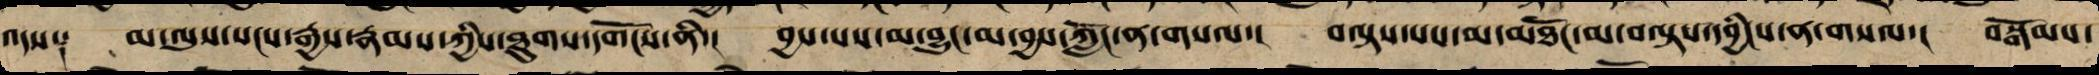འདས༑ མ་ལུས་སངས་རྒྱས་རྣམས་ཀྱི་ཐུགས་དགོངས་ནི་། བྱས་པས་མ་བྱུང་མ་བྱས་ཀློང་ན་གསལ་། བལྟས་པས་མ་མཐོང་མ་བལྟས་དབྱིངས་ན་གསལ་། བསྒོམས་
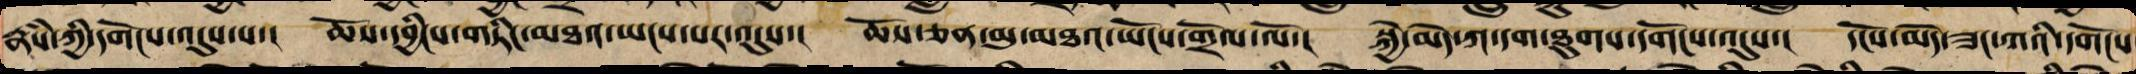རྣཾས་ཀྱི་དགོངས་འདུས་པ་། ཆོས་དབྱིངས་གཏིང་མཐའ་ཡངས་པར་འདུས་། ཆོས་ཅན་མུ་མཐའ་ཡོངས་གྲོལ་ལོ་། སྐྱེ་མེད་ཀ་དག་ཐུགས་དགོངས་འདུས་། དངོས་མེད་ཟང་ཀའི་དགོངས
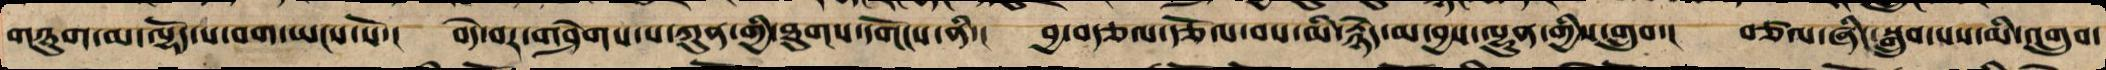གཉུག་མ་ལྷོད་པ་བག་ཡངས་སོ་། བདེ་བར་གཤེགས་པ་ཀུན་གྱི་ཐུགས་དགོངས་ནི་། བྱ་བརྩལ་རྩོལ་བས་མི་རྙེད་མ་བྱས་ལྷུན་གྱིས་གྲུབ་། བཙལ་ཞིང་སྒྲུབ་པས་མི་འགྲུབ་
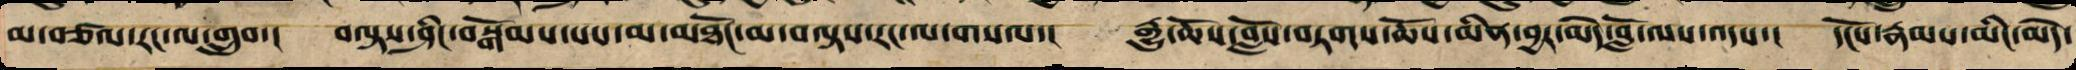མ་བཙལ་རང་ལ་གྲུབ་། བལྟས་ཤིང་བསྒོམས་པས་མ་མཐོང་མ་བལྟས་རང་ལ་གསལ་། རྒྱུ་ཆོས་བློས་བཏགས་ཆོས་མིན་བྱར་མེད་བློ་ལས་འདས་། དངོས་རྣམས་མིང་མེད་
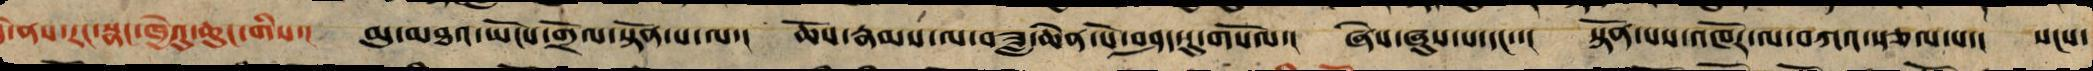་ནས་རང་སྣང་ཁྱེའུ་ཆུང་གིས་། མུ་མཐའ་ཡོངས་གྲོལ་སྟོན་པ་ལ་། ཆོས་རྣམས་ལ་བཟླ་ཆེན་པོ་བཤད་དུ་གསོལ་། ཞེས་ཞུས་པ་དང་་། སྟོན་པས་འཁོར་ལ་བཀའ་སྩལ་པ་། སངས་
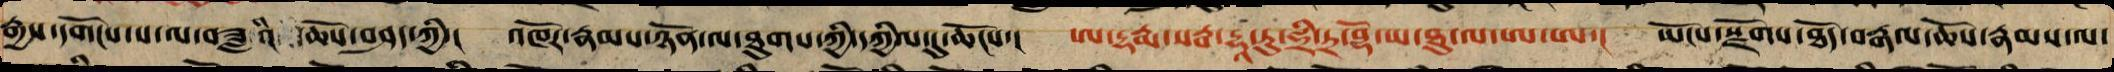རྒྱས་དགོངས་པ་ལ་བཟླའི་ ཆོས་བཤད་ཀྱི་།   འཁོར་རྣམས་ཉོན་ལ་ཐུགས་ཀྱི་དཀྱིལ་དུ་ཆོངས་།   ཨ་དྷརྨ་སརྦ་དྷཱ་ཏུ་ཧྲི་ཏྲ་བྷོ་ཡ་ཐུ་ལ་ཨ་ཨ་།  ཡོངས་རྫོགས་ཐོད་བརྒལ་ཆོས་རྣམས་ལ་
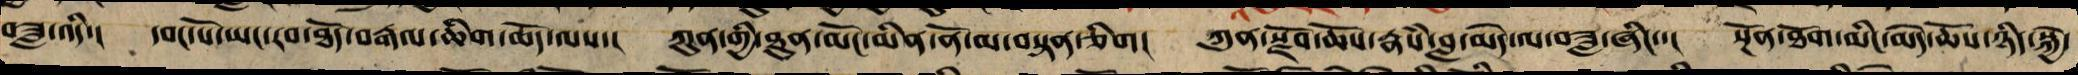བཟླ་འདི་། དབང་པོ་ཡང་རབ་ཐོད་རྒལ་ཆིག་ཆོད་ལས་། ཀུན་གྱི་ཐུན་མོང་མིན་ནོ་མ་བསྟན་ཅིག། ཀུན་སྫོབ་ཆོས་རྣཾས་བླ་མེད་ལ་བཟླ་ཞིང་་། སྔོན་ཐོག་མིང་མེད་ཆོས་ཉིད་སྐྱེ་
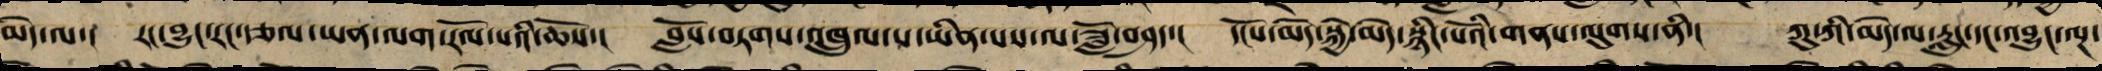མེད་ལ་། རང་བྱུང་རང་རྩལ་ཡན་ལག་རོལ་པའི་ཆོས་། བློས་བཏགས་འཁྲུལ་པ་ཡིན་པས་ལ་ཟློ་བཤད་། དངོས་མེད་སྐྱེ་མེད་སྙིང་པོའི་གནས་ལུགས་ནི་། ཀུ་ཀི་མེད་ལ་རླུང་དང་འབྱུང་ལྔ་
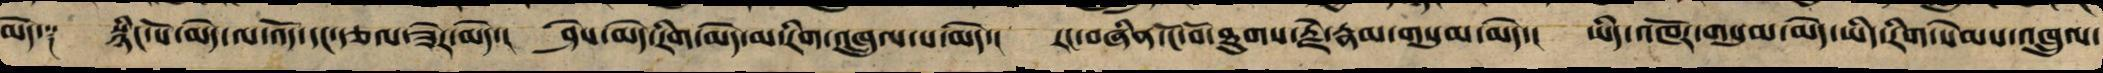མེད༑ སྙིང་པོ་མེད་ལ་འོད་དང་རྩལ་ཟེར་མེད་། ཤེས་མེད་རིག་མེད་མ་རིག་འཁྲུལ་པ་མེད་། རང་བཞིན་ངོ་བོ་ཐུགས་རྗེ་རྣམ་གསུམ་མེད་། ཡིད་འཁོར་གསུམ་མེད་ཡིད་རིག་སེམས་འཁྲུལ་
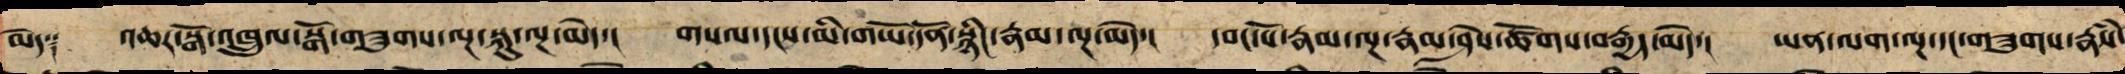མེད༑ འཆར་སྒོ་འཁྲུལ་སྒོ་གཟུགས་ལྔ་སྐུ་ལྔ་མེད་། གསལ་དངས་མི་གཡོ་དོན་སྙིང་རྣམ་ལྔ་མེད་། དབང་པོ་རྣམ་ལྔ་རྣམ་ཤེས་ཚོགས་བརྒྱད་མེད་། ཡན་ལག་ལྔ་དང་གཟུགས་རྣཾས་
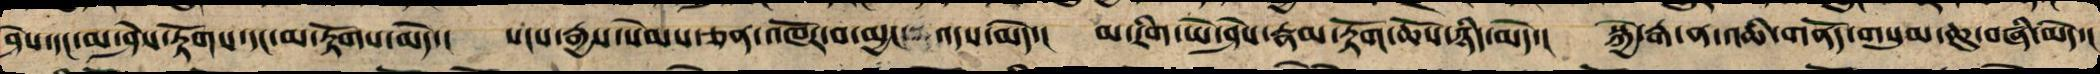ཤེས་དང་མ་ཤེས་རྟོགས་དང་མ་རྟོགས་མེད་། སངས་རྒྱས་སེམས་ཅན་འཁོར་བ་མྱང་འདས་མེད་། མ་རིག་ཡེ་ཤེས་རྣམ་རྟོག་ཆོས་ཉིད་མེད་། སྐྱེ་རྒ་ན་འཆི་གནོད་གསུམ་ཆུ་བཞི་མེད་།
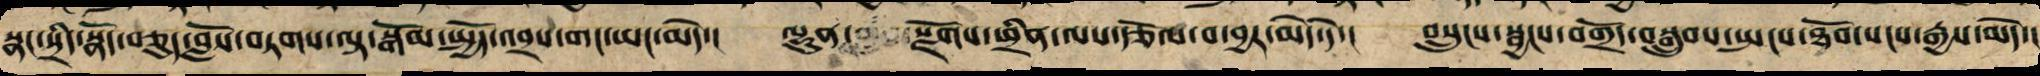སྣང་སྲིད་སྣོད་བཅུད་བློས་བཏགས་ལྟ་སྒོམ་སྤྱོད་འབྲས་གང་ཡང་མེད་། ལྷུན་སྫོགས་ཕྲིན་ལས་རྩོལ་བ་བྱར་མེད་དེ་། བསྲུངས་སྦྱངས་བགྲོད་བསྒྲུབས་སྤངས་ཐོབ་སངས་རྒྱས་མེད་།
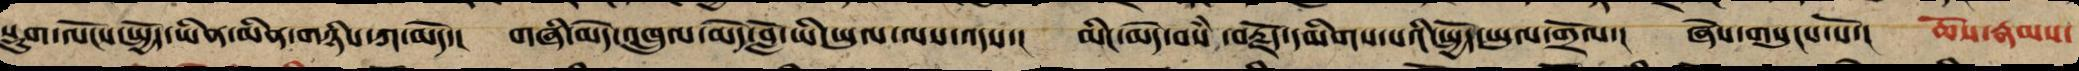སྡུག་ལོངས་སྤྱོད་ཡིན་མིན་གཉིས་ཀ་མེད་། གཞི་མེད་འཁྲུལ་མེད་བློ་ཡི་ཡུལ་ལས་འདས་། མིང་མེད་བསཾ་བརྗོད་དམིགས་པའི་སྤྱོད་ཡུལ་གྲོལ་། ཞེས་གསུངས་སོ་། ཆོས་རྣམས་
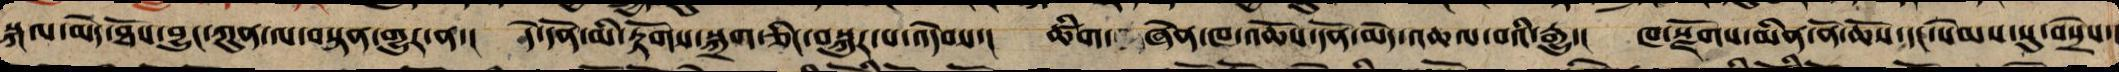སྐལ་མེད་ཐོལ་བྱུང་ཀུན་ལ་བསྟན་གྱུར་ན་། དེ་དོན་མི་རྟོགས་སྐྲག་ཅིང་སྐུར་པ་འདེབས་། ཚིག་ ཞེན་ཁ་ཆོས་དོན་མེད་འཆལ་བའི་རྒྱུ་། ཁ་སྫོགས་མིན་ནོ་ཆོས་དང་སེམས་སུ་བསྲེས་།
